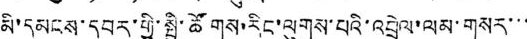མི་དམངས་དབར་གྱི་སྤྱི་ཚོགས་རིང་ལུགས་པའི་འབྲེལ་ལམ་གསར་་་
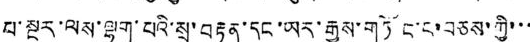པ་སྔར་ལས་ལྷག་པའི་སྲ་བརྟན་དང་ཡར་རྒྱས་གཏོང་བ་བཅས་ཀྱི་་་
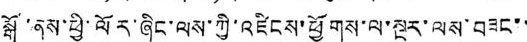སྒོ་ནས་ཕྱི་ལོར་ཞིང་ལས་ཀྱི་འཛིངས་ཕྱོགས་ལ་སྔར་ལས་བཟང་་
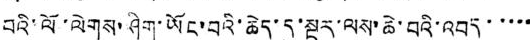བའི་ལོ་ལེགས་ཤིག་ཡོང་བའི་ཆེད་དུ་སྔར་ལས་ཆེ་བའི་འབད་་་་་
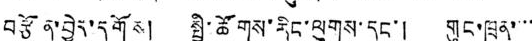བརྩོན་བྱེད་དགོས། སྤྱི་ཚོགས་རིང་ལུགས་དང་། གུང་ཁྲན་་་་
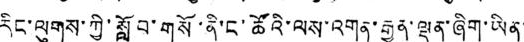རིང་ལུགས་ཀྱི་སློབ་གསོ་ནི་ང་ཚོའི་ལས་འགན་རྒྱུན་ལྡན་ཞིག་ཡིན་
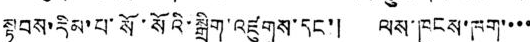སྟབས་རིམ་པ་སོ་སོའི་སྒྲིག་འཛུགས་དང་། ལས་ཁུངས་ཁག་་་་
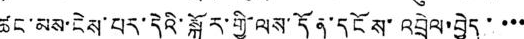ཚང་མས་ངེས་པར་དེའི་སྐོར་གྱི་ལས་དོན་དངོས་འབྲེལ་བྱེད་་་་
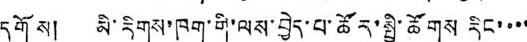དགོས། མི་རིགས་ཁག་གི་ལས་བྱེད་པ་ཚོར་སྤྱི་ཚོགས རིང་་་་
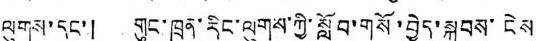ལུགས་དང་། གུང་ཁྲན་རིང་ལུགས་ཀྱི་སློབ་གསོ་བྱེད་སྐབས་ངེས
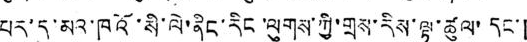པར་དུ་མའ་ཁའོ་སི་ལེ་ནིང་རིང་ལུགས་ཀྱི་གྲས་རིས་ལྟ་ཚུལ་དང་།
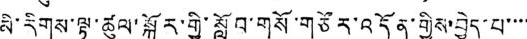མི་རིགས་ལྟ་ཚུལ་སྐོར་གྱི་སློབ་གསོ་གཙོར་འདོན་གྱིས་བྱེད་པ་་་་
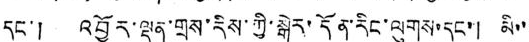དང་། འབྱོར་ལྡན་གྲས་རིས་ཀྱི་སྒེར་དོན་རིང་ལུགས་དང་། མི་་་
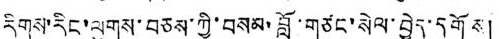རིགས་རིང་ལུགས་བཅས་ཀྱི་བཅས་བློ་གཙང་སེལ་བྱེད་དགོས།
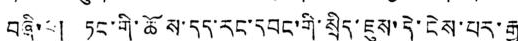བཞི་པ། ཏང་གི་ཆོས་དད་རང་དབང་གི་སྲིད་ཇུས་དེ་ངེས་པར་རྒྱ
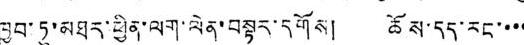ཁྱབ་ཏུ་མཐར་ཕྱིན་ལག་ལེན་བསྟར་དགོས། ཆོས་དད་རང་་་་
